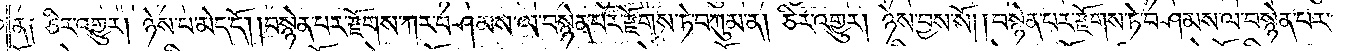ན༑ ཅིར་འགྱུར། ཉེས་པ་མེད་དོ། །བསྙེན་པར་རྫོགས་ཀར་བཤམས་ལ་བསྙེན་པར་རྫོགས་ཏེ་བཀུམ་ན། ཅིར་འགྱུར། ཉེས་བྱས་སོ། །བསྙེན་པར་རྫོགས་ཏེ་བཤམས་ལ་བསྙེན་པར་
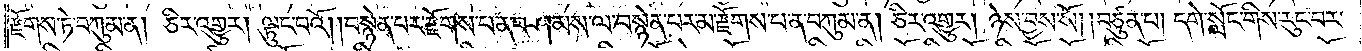རྫོགས་ཏེ་བཀུམ་ན། ཅིར་འགྱུར། ལྟུང་བའོ། །བསྙེན་པར་རྫོགས་པ་ན་བཤམས་ལ་བསྙེན་པར་མ་རྫོགས་པ་ན་བཀུམ་ན། ཅིར་འགྱུར། ཉེས་བྱས་སོ། །བཙུན་པ། དགེ་སློང་གིས་རུང་བར་
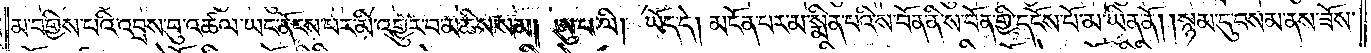མ་བགྱིས་པའི་འབྲས་བུ་འཚལ་ཡང་ནོངས་པར་མི་འགྱུར་བ་མཆིས་སམ། ཨུ་པ་ལི། ཡོད་དེ། མངོན་པར་མ་སྨིན་པའི་ས་བོན་ནི་ས་བོན་གྱི་དངོས་པོ་མ་ཡིན་ནོ། །སྙམ་དུ་བསམ་ནས་ཟོས་
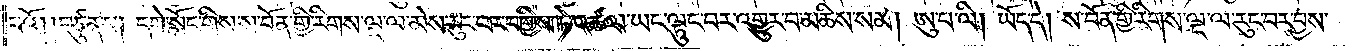པའོ། །བཙུན་པ། དགེ་སློང་གིས་ས་བོན་གྱི་རིགས་ལྔ་ལ་མེས་རུང་བར་བགྱིས་ཏེ་འཚལ་ཡང་ལྟུང་བར་འགྱུར་བ་མཆིས་སམ། ཨུ་པ་ལི། ཡོད་དེ། ས་བོན་གྱི་རིགས་ལྔ་ལ་རུང་བར་བྱས་
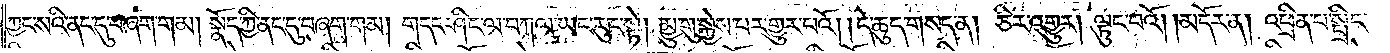ཀྱང་སའི་ནང་དུ་བཞག་གམ། སྣོད་ཀྱི་ནང་དུ་བཞག་གམ། གདང་ཤིང་ལ་བཀལ་ཡང་རུང་སྟེ། མྱུ་གུ་སྐྱེས་པར་གྱུར་པའོ། །དེ་ཆུད་གསད་ན། ཅིར་འགྱུར། ལྟུང་བའོ། །མདོར་ན། འཕྲིན་པ་སྤྲིང་
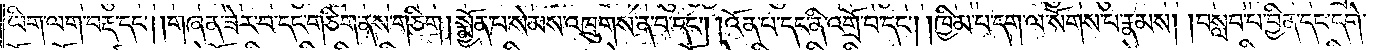ཡིག་ལག་བརྡ་དང༌། །གཞན་ཟེར་བ་དང་གཅིག་ནས་གཅིག །སྨྱོན་པ་སེམས་འཁྲུགས་ན་བ་དང༌། །འོན་པ་དང་ནི་འགྲོ་བ་དང༌། །ཁྱིམ་པ་དག་ལ་སོགས་པ་རྣམས། །བསླབ་པ་བྱིན་དང་དགེ་
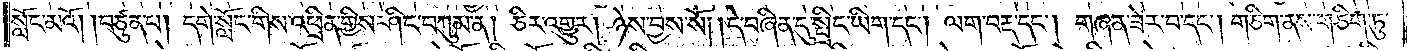སློང་མའོ། །བཙུན་པ། དགེ་སློང་གིས་འཕྲིན་གྱིས་ཤིང་བཀུམ་ན། ཅིར་འགྱུར། ཉེས་བྱས་སོ། །དེ་བཞིན་དུ་སྤྲིང་ཡིག་དང༌། ལག་བརྡ་དང༌། གཞན་ཟེར་བ་དང༌། གཅིག་ནས་གཅིག་ཏུ་
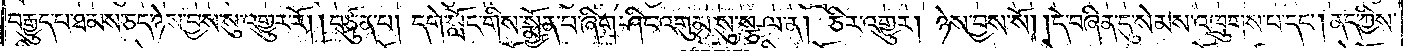བརྒྱུད་པ་ཐམས་ཅད་ཉེས་བྱས་སུ་འགྱུར་རོ། །བཙུན་པ། དགེ་སློང་གིས་སྨྱོན་པ་ཞིག་ཤིང་འགུམ་སུ་སྩལ་ན། ཅིར་འགྱུར། ཉེས་བྱས་སོ། །དེ་བཞིན་དུ་སེམས་འཁྲུགས་པ་དང༌། ནད་ཀྱིས་
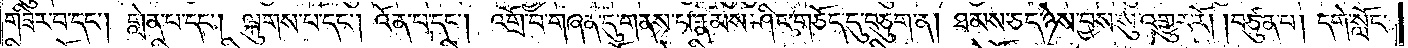གཟིར་བ་དང༌། གླེན་པ་དང༌། ལྐུགས་པ་དང༌། འོན་པ་དང༌། འགྲོ་བ་གཞན་དུ་གནས་པ་རྣམས་ཤིང་གཅོད་དུ་བཅུག་ན། ཐམས་ཅད་ཉེས་བྱས་སུ་འགྱུར་རོ། །བཙུན་པ། དགེ་སློང་
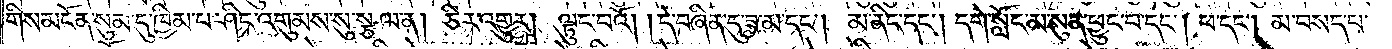གིས་མངོན་སུམ་དུ་ཁྱིམ་པ་ཤིང་འགུམས་སུ་སྩལ་ན། ཅིར་འགྱུར། ལྟུང་བའོ། །དེ་བཞིན་དུ་ཟ་མ་དང༌། མ་ནིང་དང༌། དགེ་སློང་མ་སུན་ཕྱུང་བ་དང༌། ཕ་དང༌། མ་བསད་པ་
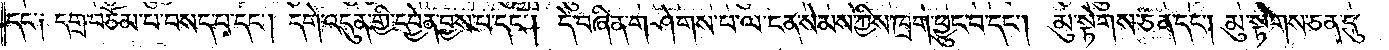དང༌༑ དགྲ་བཅོམ་པ་བསད་པ་དང༌། དགེ་འདུན་གྱི་དབྱེན་བྱས་པ་དང༌། དེ་བཞིན་གཤེགས་པ་ལ་ངན་སེམས་ཀྱིས་ཁྲག་ཕྱུང་བ་དང༌། མུ་སྟེགས་ཅན་དང༌། མུ་སྟེགས་ཅན་དུ་
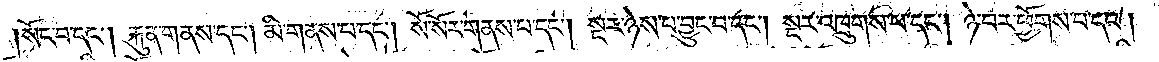།སོང་བ་དང༌། རྐུན་གནས་དང༌། མི་གནས་པ་དང༌། སོ་སོར་གནས་པ་དང༌། སྔར་ཉེས་པ་བྱུང་བ་དང༌། སྔར་འཁྲུགས་པ་དང༌། ཉེ་བར་ཕྱོགས་པ་དང༌།
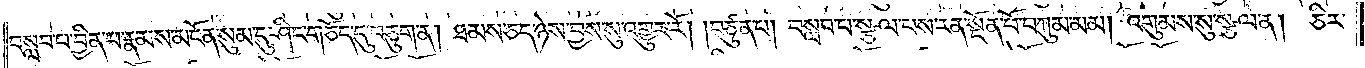བསླབ་པ་བྱིན་པ་རྣམས་མངོན་སུམ་དུ་ཤིང་གཅོད་དུ་བཅུག་ན། ཐམས་ཅད་ཉེས་བྱས་སུ་འགྱུར་རོ། །བཙུན་པ། བསླབ་པ་སྩལ་པས་རན་སྔོན་པོ་བཀུམ་མམ། འགུམས་སུ་སྩལ་ན། ཅིར་
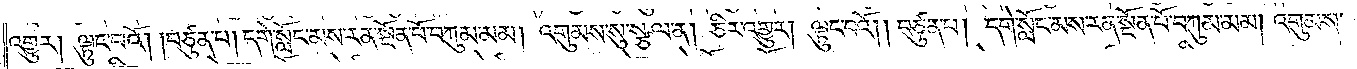འགྱུར། །ལྟུང་བའོ། །བཙུན་པ། དགེ་སློང་མས་རན་སྔོན་པོ་བཀུམ་མམ། འགུམས་སུ་སྩལ་ན། ཅིར་འགྱུར། ལྟུང་བའོ། །བཙུན་པ། དགེ་སློང་མས་རན་སྔོན་པོ་བཀུམ་མམ། འགུམས་
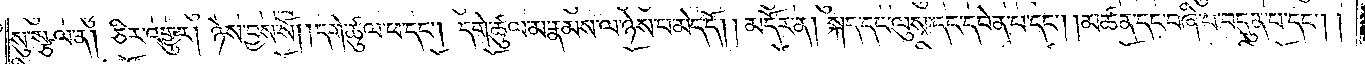སུ་སྩལ་ན། ཅིར་འགྱུར། ཉེས་བྱས་སོ། །དགེ་ཚུལ་ཕ་དང༌། དགེ་ཚུལ་མ་རྣམས་ལ་ཉེས་པ་མེད་དོ།    །མདོར་ན། སྐད་དང་ལུས་དང་དབེན་པ་དང༌། །མཚན་དང་བཞི་པ་བདུན་པ་དང༌།
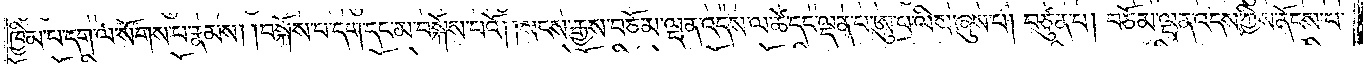ཁྱིམ་པ་དག་ལ་སོགས་པ་རྣམས། །བསྐོས་པ་དག་དང་མ་བསྐོས་པའོ། །སངས་རྒྱས་བཅོམ་ལྡན་འདས་ལ་ཚེ་དང་ལྡན་པ་ཨུ་པ་ལིས་ཞུས་པ། བཙུན་པ། བཅོམ་ལྡན་འདས་ཀྱིས་ནོངས་པ་
